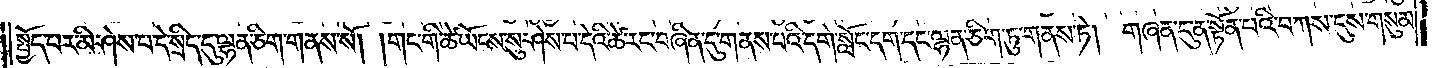སྤྱོད་པར་མི་ཤེས་པ་དེ་སྲིད་དུ་ལྷན་ཅིག་གནས་སོ། །གང་གི་ཚེ་ཡོངས་སུ་ཤེས་པ་དེའི་ཚེ་རང་བཞིན་དུ་གནས་པའི་དགེ་སློང་དག་དང་ལྷན་ཅིག་ཏུ་གནས་ཏེ། གཞན་དུ་ན་སྟོན་པའི་བཀས་དུས་གསུམ་
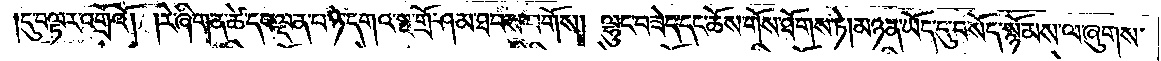དུ་བལྟར་འགྲོའོ། །རེ་ཞིག་ན་ཚེ་དང་ལྡན་པ་ཉེ་དགའ་སྔ་གྲོ་ཤམ་ཐབས་བགོས། ལྷུང་བཟེད་དང་ཆོས་གོས་ཐོགས་ཏེ། མཉན་ཡོད་དུ་བསོད་སྙོམས་ལ་ཞུགས་
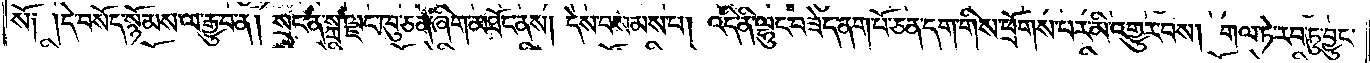སོ༑ །དེ་བསོད་སྙོམས་ལ་རྒྱུ་བ་ན། སྲང་ན་སྐྲ་ལྗང་ཁུ་ཅན་ཞིག་མཐོང་ནས། དེས་བསམས་པ། འདི་ནི་ལྷུང་བཟེད་ནག་པོ་ཅན་དག་གིས་ཕྲོགས་པར་མི་འགྱུར་བས། གལ་ཏེ་རབ་ཏུ་བྱུང་
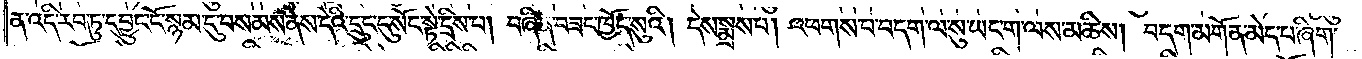ན་འདི་རབ་ཏུ་དབྱུང་ངོ་སྙམ་དུ་བསམས་ནས་དེའི་དྲུང་དུ་སོང་སྟེ་དྲིས་པ། བཞིན་བཟང་ཁྱོད་སུའི། དེས་སྨྲས་པ། འཕགས་པ་བདག་ལ་སུ་ཡང་ག་ལས་མཆིས། བདག་མགོན་མེད་པ་ཞིག་
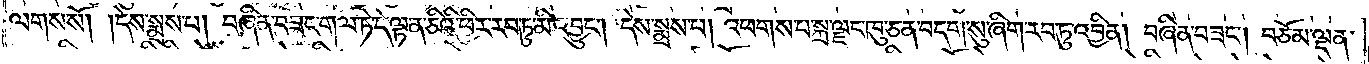ལགས་སོ། །དེས་སྨྲས་པ། བཞིན་བཟང་གལ་ཏེ་དེ་ལྟ་ན་ཅིའི་ཕྱིར་རབ་ཏུ་མི་འབྱུང༌། དེས་སྨྲས་པ། འཕགས་པ་སྐྲ་ལྗང་ཁུ་ཅན་བདག་སུ་ཞིག་རབ་ཏུ་འབྱིན། བཞིན་བཟང༌། བཅོམ་ལྡན་
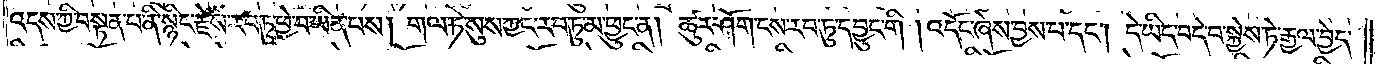འདས་ཀྱི་བསྟན་པ་ནི་སྙིང་རྗེས་རབ་ཏུ་ཕྱེ་བ་ཡིན་པས། གལ་ཏེ་སུས་ཀྱང་རབ་ཏུ་མ་ཕྱུང་ན། ཚུར་ཤོག་ངས་རབ་ཏུ་དབྱུང་གི། འདོང་ཞེས་བྱས་པ་དང༌། དེ་ཡིད་བདེ་བ་སྐྱེས་ཏེ་རྒྱལ་བྱེད་
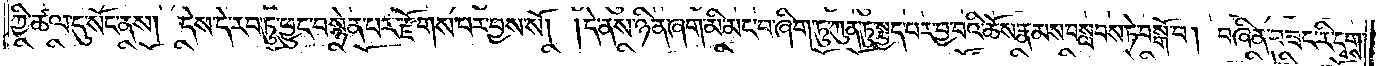ཀྱི་ཚལ་དུ་སོང་ནས། དེས་དེ་རབ་ཏུ་ཕྱུང་བསྙེན་པར་རྫོགས་པར་བྱས་སོ། །དེ་ནས་ཉིན་ཞག་མི་མང་བ་ཞིག་ཏུ་ཀུན་ཏུ་སྤྱད་པར་བྱ་བའི་ཆོས་རྣམས་བསླབས་ཏེ་བསྒོ་བ། བཞིན་བཟང་རི་དྭགས་
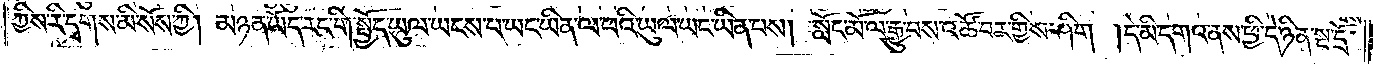ཀྱིས་རི་དྭགས་མི་སོས་ཀྱི། མཉན་ཡོད་རང་གི་སྤྱོད་ཡུལ་ཡངས་པ་ཡང་ཡིན་ལ་ཕའི་ཡུལ་ཡང་ཡིན་པས། སློང་མོ་ལ་རྒྱུ་བས་འཚོ་བར་གྱིས་ཤིག །དེ་མི་དགའ་ནས་ཕྱི་དེ་ཉིན་སྔ་དྲོ་
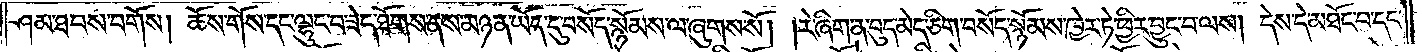ཤམ་ཐབས་བགོས། ཆོས་གོས་དང་ལྷུང་བ་ཟེད་ཐོགས་ནས་མཉན་ཡོད་དུ་བསོད་སྙོམས་ལ་ཞུགས་སོ། །རེ་ཞིག་ན་བུད་མེད་ཅིག་བསོད་སྙོམས་ཁྱེར་ཏེ་ཕྱིར་བྱུང་བ་ལས། དེས་དེ་མཐོང་བ་དང་
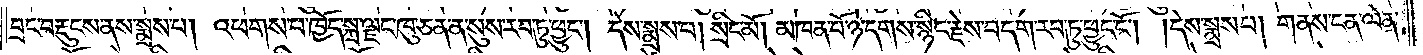བྲང་བརྡུངས་ནས་སྨྲས་པ། འཕགས་པ་ཁྱོད་སྐྲ་ལྗང་ཁུ་ཅན་ན་སུས་རབ་ཏུ་ཕྱུང༌། དེས་སྨྲས་པ། སྲིང་མོ། མཁན་པོ་ཉེ་དགས་སྙིང་རྗེས་བདག་རབ་ཏུ་ཕྱུང་ངོ༌། །དེས་སྨྲས་པ། གནས་ངན་ལེན་
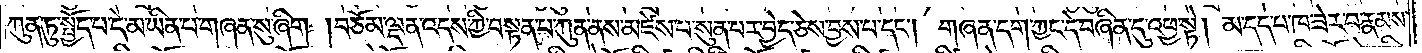ཀུན་ཏུ་སྤྱོད་པ་དེ་མ་ཡིན་པ་གཞན་སུ་ཞིག །བཅོམ་ལྡན་འདས་ཀྱི་བསྟན་པ་ཀུན་ནས་མཛེས་པ་སུན་པར་བྱེད་ཅེས་བྱས་པ་དང༌། གཞན་དག་ཀྱང་དེ་བཞིན་དུ་འཕྱ་སྟེ། མ་དད་པ་ཁ་ཟེར་བ་རྣམས་
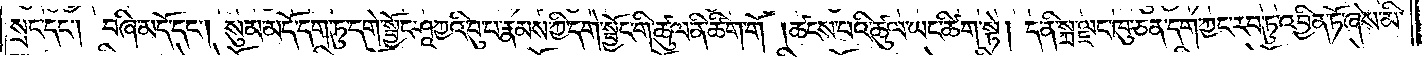སྲང་དང༌། བཞི་མདོ་དང༌། སུམ་མདོ་དག་ཏུ་དགེ་སྦྱོང་ཤཱཀྱའི་བུ་བ་རྣམས་ཀྱི་དགེ་སྦྱོང་གི་ཚུལ་ནི་ཚིག་གོ །ཚངས་པའི་ཚུལ་ཡང་ཚིག་སྟེ། ད་ནི་སྐྲ་ལྗང་ཁུ་ཅན་དག་ཀྱང་རབ་ཏུ་འབྱིན་ཏོ་ཞེས་མི་
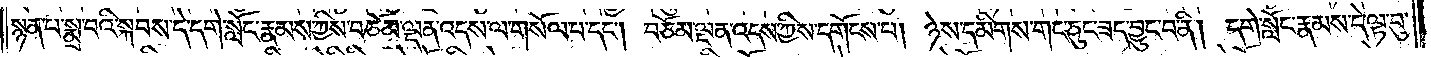སྙན་པ་སྨྲ་བའི་སྐབས་དེ་དགེ་སློང་རྣམས་ཀྱིས་བཅོམ་ལྡན་འདས་ལ་གསོལ་པ་དང༌། བཅོམ་ལྡན་འདས་ཀྱིས་དགོངས་པ། ཉེས་དམིགས་གང་ཅུང་ཟད་བྱུང་བ་ནི། དགེ་སློང་རྣམས་དེ་ལྟ་བུ་
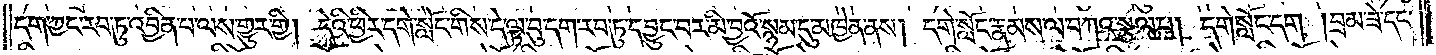དག་ཀྱང་རབ་ཏུ་འབྱིན་པ་ལས་གྱུར་གྱི། དེའི་ཕྱིར་དགེ་སློང་གིས་དེ་ལྟ་བུ་དག་རབ་ཏུ་དབྱུང་བར་མི་བྱའོ་སྙམ་དུ་མཁྱེན་ནས། དགེ་སློང་རྣམས་ལ་བཀའ་སྩལ་པ། དགེ་སློང་དག །བྲམ་ཟེ་དང་
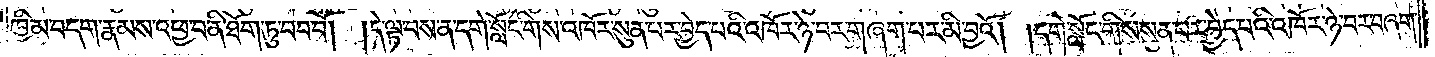ཁྱིམ་བདག་རྣམས་འཕྱ་བ་ནི་ཐོག་ཏུ་བབ་བོ། །དེ་ལྟ་བས་ན་དགེ་སློང་གིས་འཁོར་སུན་པར་བྱེད་པའི་འཁོར་ཉེ་བར་གཞག་པར་མི་བྱའོ། །དགེ་སློང་གིས་སུན་པར་བྱེད་པའི་འཁོར་ཉེ་བར་བཞག་
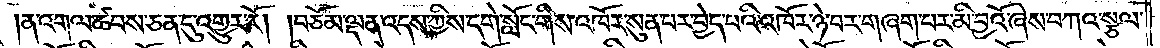ན་འགལ་ཚབས་ཅན་དུ་འགྱུར་རོ། །བཅོམ་ལྡན་འདས་ཀྱིས་དགེ་སློང་གིས་འཁོར་སུན་པར་བྱེད་པའི་འཁོར་ཉེ་བར་གཞག་པར་མི་བྱའོ་ཞེས་བཀའ་སྩལ་
